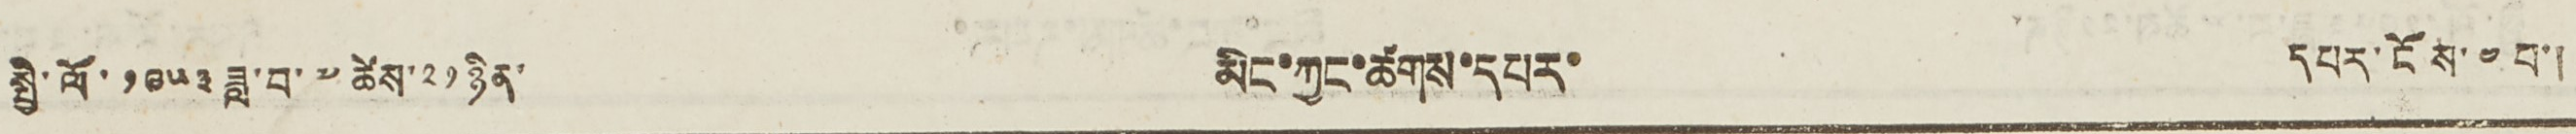སྤྱི་ལོ་ ༡༩༥༣ ཟླ་བ་ ༧ ཚེས་ ༢༡ ཉིན་ མིང་ཀྱང་ཚགས་དཔར་ དཔར་ངོས་ ༤ པ་།
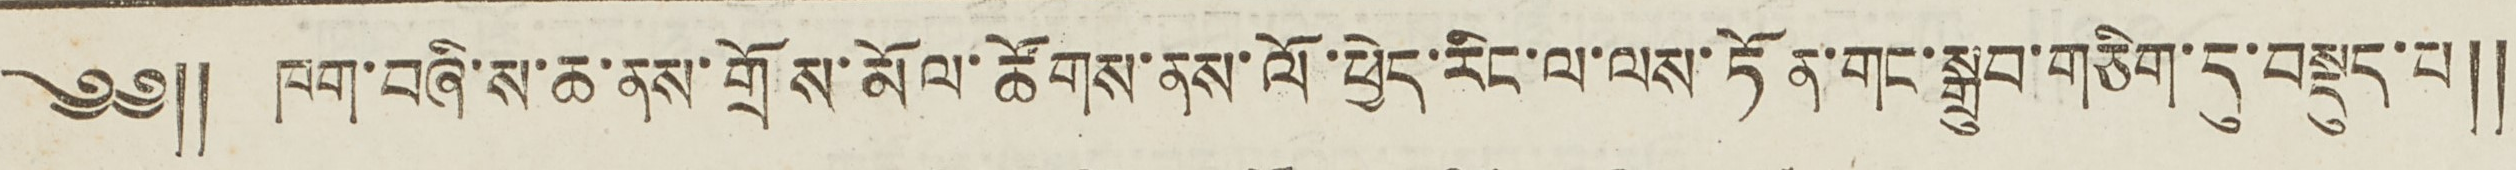༄༅༎ ཁག་བཞི་ས་ཆ་ནས་གྲོས་མོལ་ཚོགས་ནས་ལོ་ཕྱེད་རིང་ལ་ལས་ཏོན་གང་སྒྲུབ་གཅིག་དུ་བསྡུད་པ༎
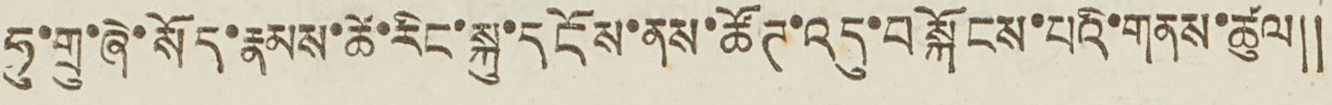ཧུ་གྲུ་ཞེ་སོད་རྣམས་ཚེ་རིང་སྐུ་དངོས་ནས་ཚོཊ་འདུ་བསྐོངས་པའི་གནས་ཚུལ༎
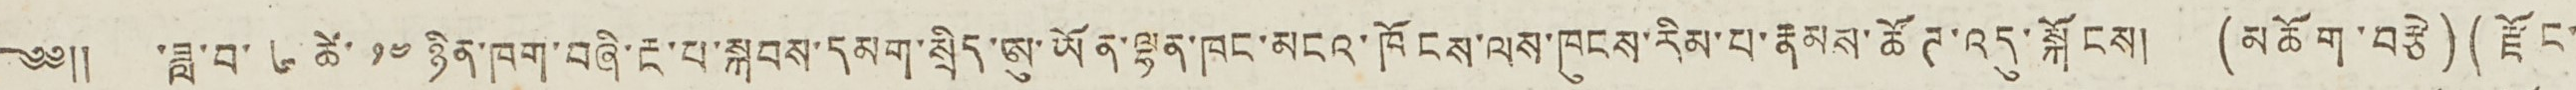༄༅༎ ་ཟླ་བ་ ༦ ཚེ་ ༡༤ ཉིན་ཁག་བཞི་རྔ་པ་སྐབས་དམག་སྲིད་ཨུ་ཡོན་ལྷན་ཁང་མངའ་ཁོངས་ལས་ཁུངས་རིམ་པ་རྣམས་ཚོཊ་འདུ་སྐོངས། (མཆོག་བརྩེ་) (རྫོང་
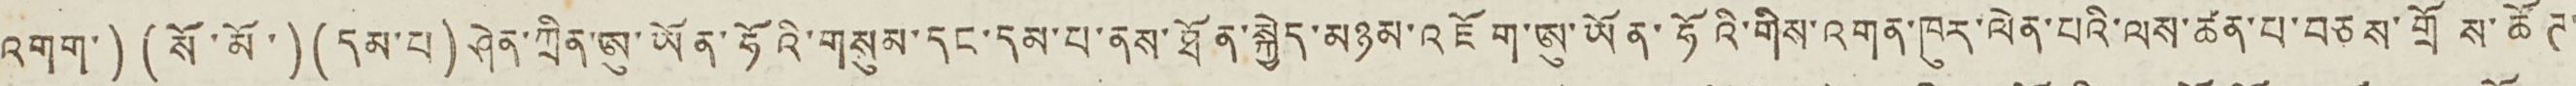འགག་) (སོ་མོ་) (དམ་པ) ཤེན་ཀྲིན་ཨུ་ཡོན་ཧོའི་གསུམ་དང་དམ་པ་ནས་ཐོན་སྐྱེད་མཉམ་འཇོག་ཨུ་ཡོན་ཧོའི་གིས་འགན་ཁུར་ལེན་པའི་ལས་ཚན་པ་བཅས་གྲོས་ཚོཊ་
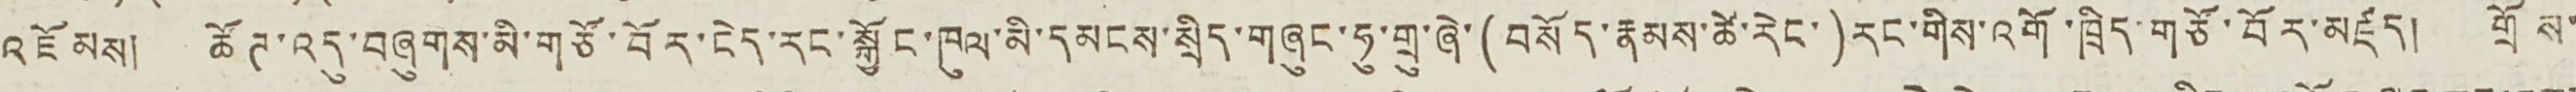འཇོམས། ཚོཊ་འདུ་བཞུགས་མི་གཙོ་བོར་ངེད་རང་སྐྱོང་ཁུལ་མི་དམངས་སྲིད་གཞུང་ཧུ་གྲུ་ཞེ་(བསོད་རྣམས་ཚེ་རེང་)རང་གིས་འགོ་ཁྲིད་གཙོ་བོར་མཛད། གྲོས་
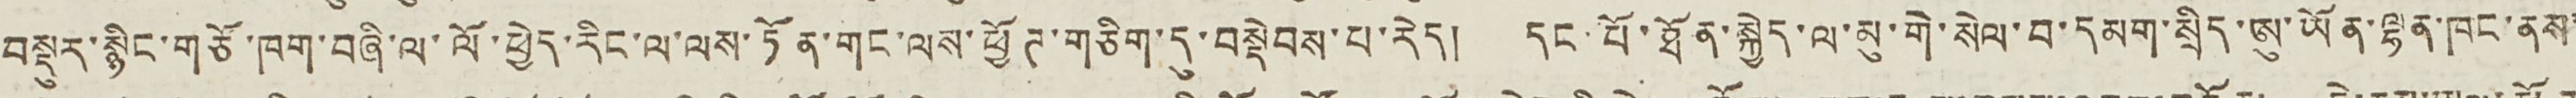བསྡུར་སྙིང་གཙོ་ཁག་བཞི་ལ་ལོ་ཕྱེད་རིང་ལ་ལས་ཏོན་གང་ལས་ཕྱོཊ་གཅིག་དུ་བསྡེབས་པ་རེད། དང་པོ་ཐོན་སྐྱེད་ལ་མུ་གེ་སེལ་བ་དམག་སྲིད་ཨུ་ཡོན་ལྷན་ཁང་ནས་
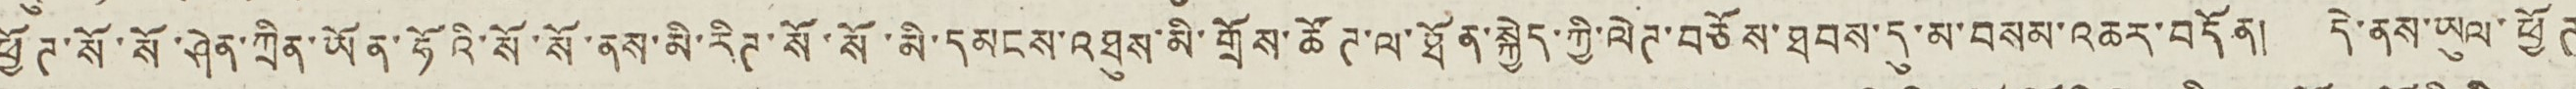ཕྱོཊ་སོ་སོ་ཤེན་ཀྲིན་ཡོན་ཧོའི་སོ་སོ་ནས་མི་རིཊ་སོ་སོ་མི་དམངས་འཐུས་མི་གྲོས་ཚོཊ་ལ་ཐོན་སྐྱེད་ཀྱི་ལེཊ་བཅོས་ཐབས་དུ་མ་བསམ་འཆར་བདོན། དེ་ནས་ཡུལ་ཕྱོཊ
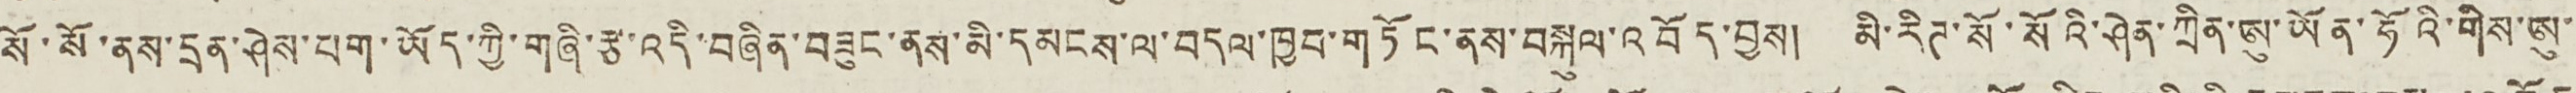སོ་སོ་ནས་དྲན་ཤེས་པག་ཡོད་ཀྱི་གཞི་རྩ་འདི་བཞིན་བཟུང་ནས་མི་དམངས་ལ་བདལ་ཁྱབ་གཏོང་ནས་བསྐུལ་འབོད་བྱས། མི་རིཊ་སོ་སོའི་ཤེན་ཀྲིན་ཨུ་ཡོན་ཧོའི་གིས་ཨུ་
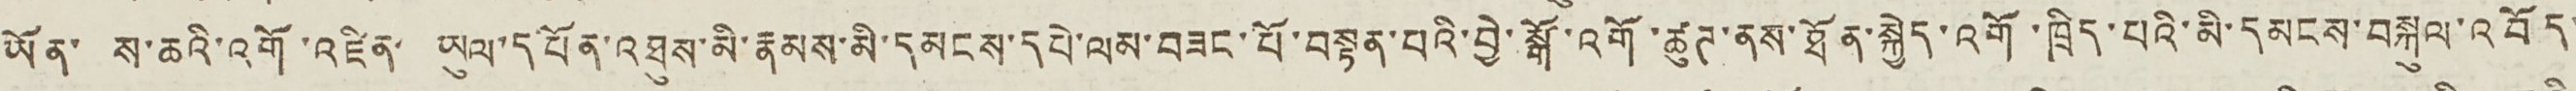ཡོན་ ས་ཆའི་འགོ་འཛིན་ ཡུལ་དཔོན་འཐུས་མི་རྣམས་མི་དམངས་དཔེ་ལམ་བཟང་པོ་བསྟན་པའི་བྱེ་སྒོ་འགོ་ཚུཊ་ནས་ཐོན་སྐྱེད་འགོ་ཁྲིད་པའི་མི་དམངས་བསྐུལ་འབོད་
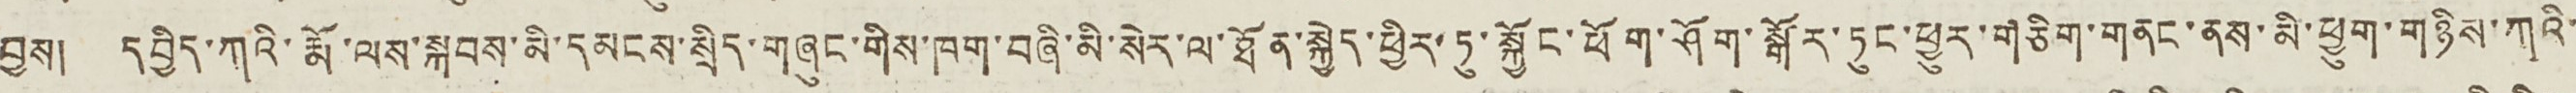བྱས། དབྱིད་ཀའི་རྨོ་ལས་སྐབས་མི་དམངས་སྲིད་གཞུང་གིས་ཁག་བཞི་མི་སེར་ལ་ཐོན་སྐྱེད་ཕྱིར་ཏུ་སྐྱོང་ཕོག་ཤོག་སྒོར་ཏུང་ཕྱུར་གཅིག་གནང་ནས་མི་ཕྱུག་གཉིས་ཀའི་
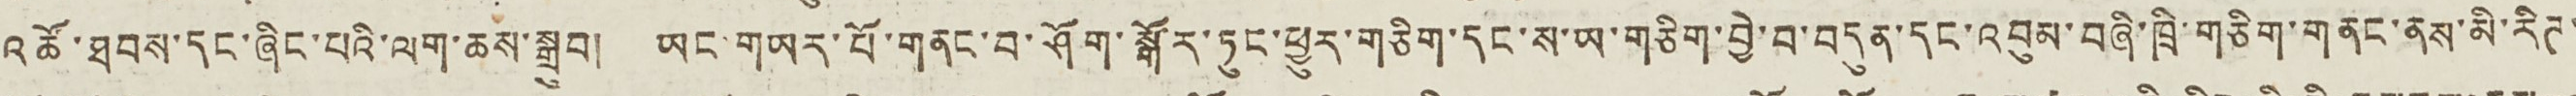འཚོ་ཐབས་དང་ཞིང་པའི་ལག་ཆས་སྒྲུབ། ཡང གཡར་པོ་གནང་བ་ཤོག་སྒོར་ཏུང་ཕྱུར་གཅིག་དང་ས་ཡ་གཅིག་བྱེ་བ་བདུན་དང་འབུམ་བཞི་ཁྲི་གཅིག་གནང་ནས་མི་རིཊ་
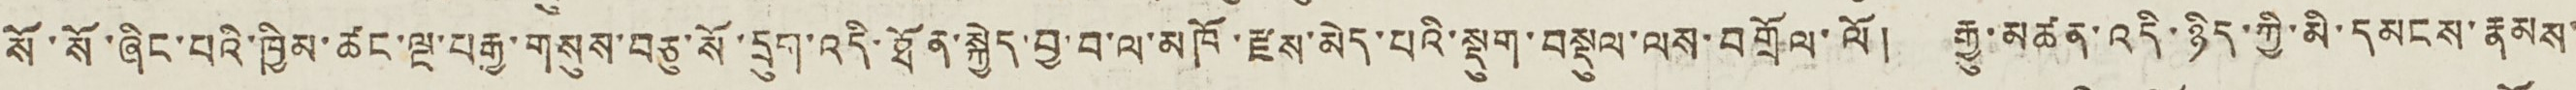སོ་སོ་ཞིང་པའི་ཁྱིམ་ཚང་ལྔ་བརྒྱ་གསུས་བཅུ་སོ་དྲུག་འདི་ཐོན་སྐྱེད་བྱ་བ་ལ་མཁོ་རྫས་མེད་པའི་སྡུག་བསྡུལ་ལས་བགྲོལ་ལོ། རྒྱུ་མཚན་འདི་ཉིད་ཀྱི་མི་དམངས་རྣམས་
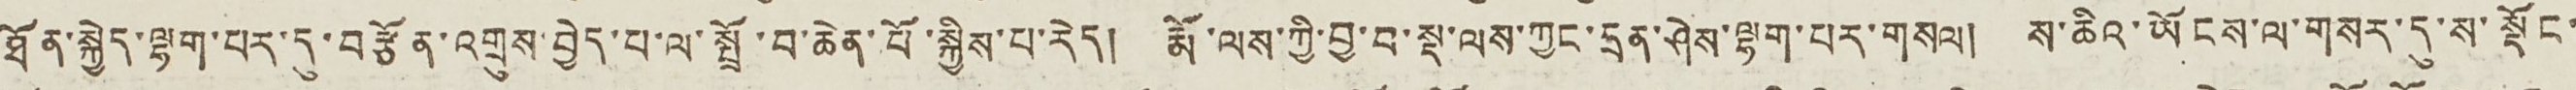ཐོན་སྐྱེད་ལྷག་པར་དུ་བརྩོན་འགྲུས་བྱེད་པ་ལ་སྤྲོ་བ་ཆེན་པོ་སྐྱིས་པ་རེད། རྨོ་ལས་ཀྱི་བྱ་བ་སྡ་ལས་ཀྱང་དྲན་ཤེས་ལྷག་པར་གསལ། ས་ཆིའ་ཡོངས་ལ་གསར་དུ་ས་སྡོང་
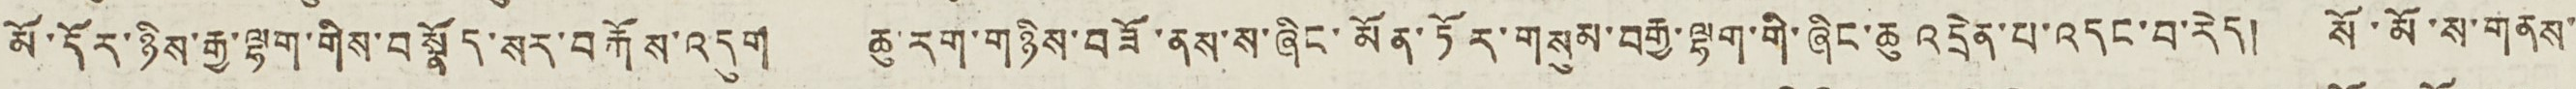མོ་དོར་ཉིས་རྒྱ་ལྷག་གིས་བསྣོད་སར་བརྐོས་འདུག ཆུ་རག་གཉིས་བཟོ་ནས་ས་ཞིང་མོན་ཏོར་གསུམ་བརྒྱ་ལྷག་གི་ཞིང་ཆུ འདྲེན་པ་འདང་བ་རེད། སོ་མོ་ས་གནས་
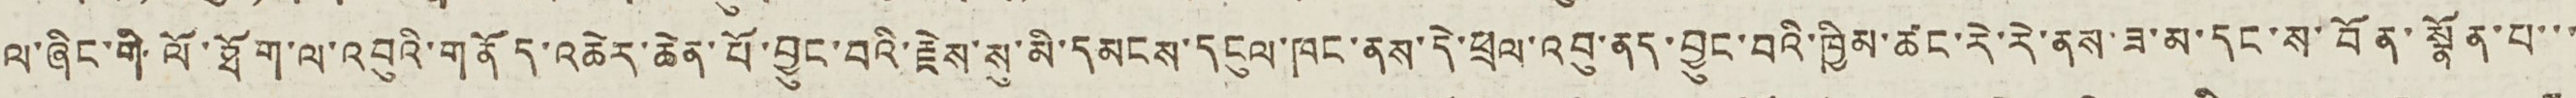ལ་ཞིང་གི་ལོ་ཐོག་ལ་འབུའི་གནོད་འཚེར་ཆེན་པོ་བྱུང་བའི་རྗེས་སུ་མི་དམངས་དངུལ་ཁང་ནས་དེ་ཕྲལ་འབུ་ནད་བྱུང་བའི་ཁྱིམ་ཚང་རེ་རེ་ནས་ཟ་མ་དང་ས་བོན་སྣོན་པ་་་
